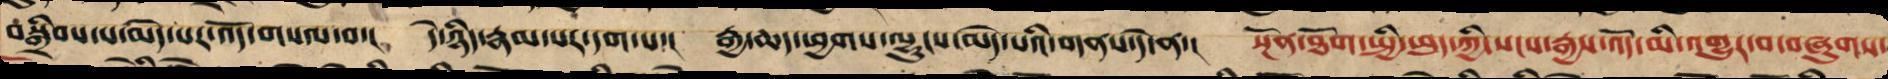བསྒྲིབས་པ་མེད་པར་འོད་གསལ་བ་། དེ་ཉིད་དུ་རྣམ་པར་དག་པ་། རྒྱ་ཆད་ཕྱགས་ལྷུངས་མེད་པའི་གནས་དེ་ན་། སྔོན་ཐོག་སྤྱི་ཕུད་ཀྱི་སངས་རྒྱས་འོད་མི་འགྱུར་བ་བཞུགས་
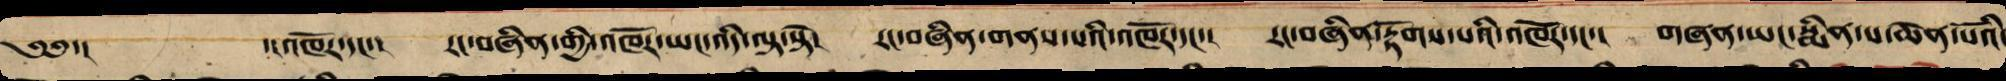༄༅་། ་།འཁོར་དང་། རང་བཞིན་གྱི་འཁོར་ཡང་འདི་ལྟ་སྟེ། རང་བཞིན་གནས་པའི་འཁོར་དང་། རང་བཞིན་རྟོགས་པའི་འཁོར་དང་། གཞན་ཡང་སྨིན་པ་ཆེན་པོའི་
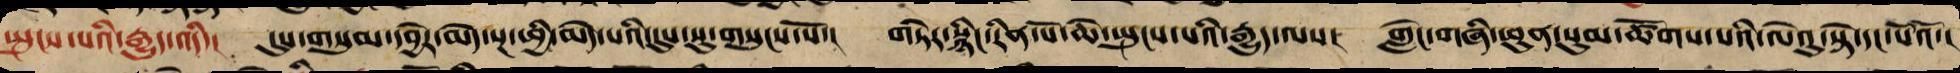སྤུངས་པའི་རྒྱུད་འདི་། དུས་གསུམ་དབྱེར་མེད་སྔ་ཕྱི་མེད་པའི་དུས་སུ་གསུངས་སོ་། གཏེར་སྙིང་རིན་པོ་ཆེ་སྤུངས་པའི་རྒྱུད་ལས། གླེང་གཞི་ཕུན་སུམ་ཚོགས་པའི་ལེའུ་སྟེ་དང་པོའོ་།།
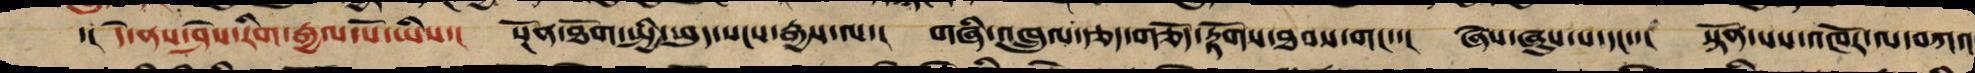་། དེ་ནས་ཤེས་རིག་རྒྱལ་པོ་ཡིས་། སྔོན་ཐོག་སྤྱི་ཕུད་སངས་རྒྱས་ལ་། གཞི་འཁྲུལ་རྩད་གཅོད་རྟོགས་ཐབས་གང་་། ཞེས་ཞུས་པ་དང་་། སྟོན་པས་འཁོར་ལ་བཀའ
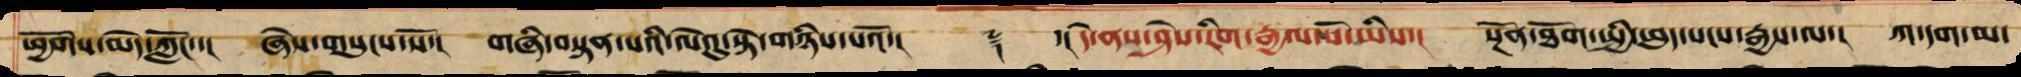ཕྱོགས་མེད་ཀློང་་། ཞེས་གསུངས་སོ་། གཞི་བསྟན་པའི་ལེའུ་སྟེ་གཉིས་པའོ་།། ༈ ་། དེ་ནས་ཤེས་རིག་རྒྱལ་པོ་ཡིས་། སྔོན་ཐོག་སྤྱི་ཕུད་སངས་རྒྱས་ལ་། ཀ་དག་མ་
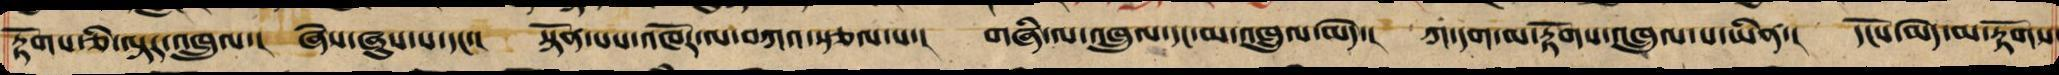རྟོགས་ཅི་ལྟར་འཁྲུལ་། ཞེས་ཞུས་པ་དང་། སྟོན་པས་འཁོར་ལ་བཀའ་སྩལ་པ་། གཞི་ལ་འཁྲུལ་དང་མ་འཁྲུལ་མེད་། ཀ་དག་མ་རྟོགས་འཁྲུལ་པ་ཡིན་། དངོས་མེད་མ་རྟོགས་
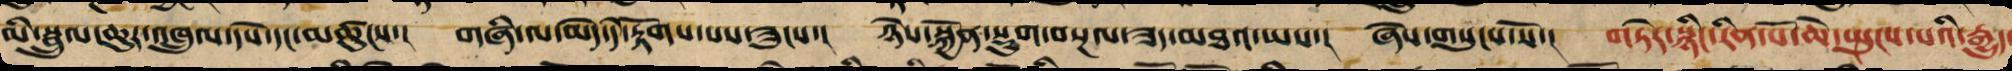མི་སྦྲུལ་ཆུར་འཁྲུལ་དཔེ་དང་མཚུངས་། གཞི་ལ་མེད་དེ་རྟོག་པས་ཟུངས་། ཉེས་སྐྱོན་སྡུག་བསྔལ་ཟད་མཐའ་ཡས་། ཞེས་གསུངས་སོ་། གཏེར་སྙིང་རིན་པོ་ཆེ་སྤུངས་པའི་རྒྱུད་
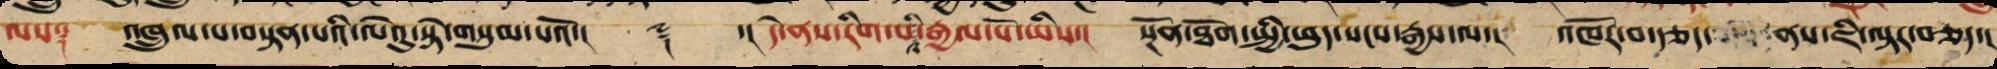ལས༑ འཁྲུལ་པ་བསྟན་པའི་ལེའུ་སྟེ་གསུམ་པའོ་།། ༈ ་། དེ་ནས་རིག་པའི་རྒྱལ་པོ་ཡིས་། སྔོན་ཐོག་སྤྱི་ཕུད་སངས་རྒྱས་ལ་། འཁོར་བ་རྩད་ ནས་ཇི་ལྟར་བཅད་།
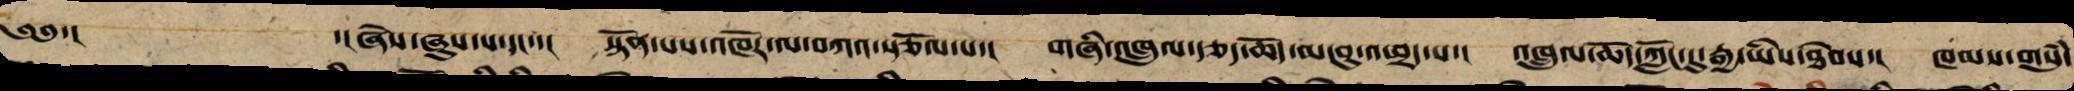༄༅་། ་།ཞེས་ཞུས་པ་དང་་། སྟོན་པས་འཁོར་ལ་བཀའ་སྩོལ་པ་། གཞི་འཁྲུལ་རྩད་ཆོད་མ་བུ་འཕྲད་པ་། འཁྲུལ་ཆོད་ཀློང་དུ་རྒྱ་ཡིས་ཐེབས་། ཁམས་གསུཾ་
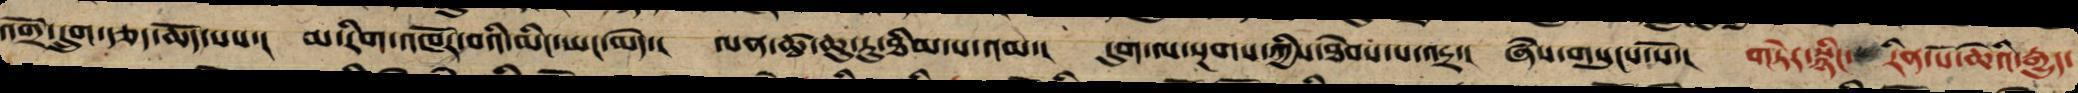འགྲོ་དྲུག་རྩད་ཆོད་པས་། མ་རིག་འཁོར་བའི་མིང་ཡང་མེད་། ལན་ཚྭ་ཆུ་རུ་ཐིམ་པའམ་། དུག་ལ་སྔགས་ཀྱིས་ཐེབས་པ་འདྲ་། ཞེས་གསུངས་སོ་། གཏེར་སྙིང་ རིན་པོ་ཆེའི་རྒྱུད་
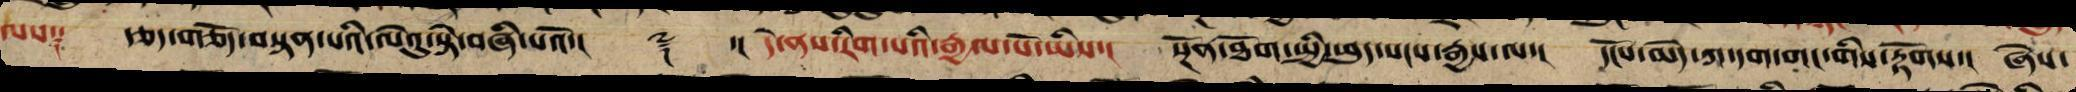ལས༑ རྩད་གཅོད་བསྟན་པའི་ལེའུ་སྟེ་བཞི་པའོ་།། ༈ ་། དེ་ནས་རིག་པའི་རྒྱལ་པོ་ཡིས་། སྔོན་ཐོག་སྤྱི་ཕུད་སངས་རྒྱས་ལ་། དངོས་མེད་ཀ་དག་གང་གིས་རྟོགས་། ཞེས་
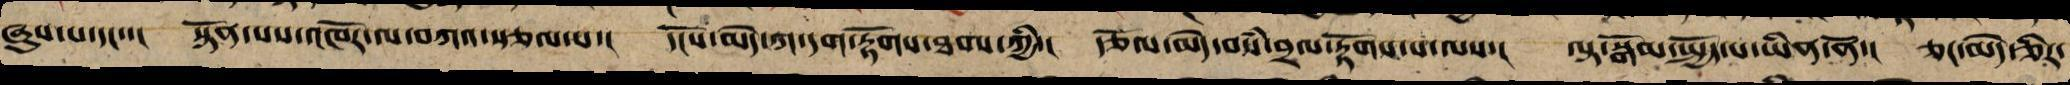ཞུས་པ་དང་་། སྟོན་པས་འཁོར་ལ་བཀའ་སྩལ་པ་། དངོས་མེད་ཀ་དག་རྟོགས་ཐབས་ཀྱི་། རྩོལ་མེད་བསཾ་བྲལ་རྟོགས་པ་ལས་། ལྟ་སྒོམ་སྤྱོད་པས་མ་ཡིན་ནོ་། ཅང་མེད་ཅིར་
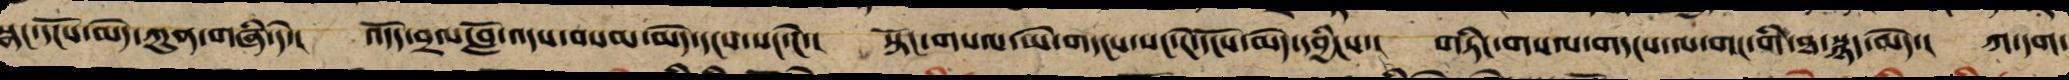སྣང་དངོས་མེད་ཀུན་གཞི་དེ་། འདོད་བྲལ་བློ་འདས་བསམ་མེད་དངས་སང་ངེ་། སྟོང་གསལ་ཡེ་གདངས་སང་ངེ་དངོས་མེད་དབྱིངས་། གཏིང་གསལ་གདངས་ལ་གང་གི་ཐ་སྙད་མེད་། ཀ་དག་
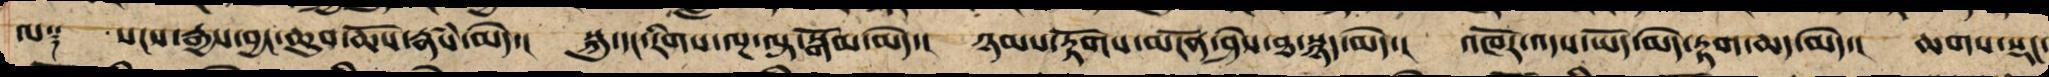ལ་།   སངས་རྒྱས་བྱང་ཆུབ་ཆོས་རྣཾས་མེད།    སྐུ་དང་རིགས་ལྔ་ལྷ་སྒོམ་མེད།   ཉམས་རྟོགས་མངོན་ཤེས་ཐ་སྙད་མེད།   འཁོར་འདས་ཡོད་མེད་རྟག་མད་མོད།   ཆགས་སྡང་་
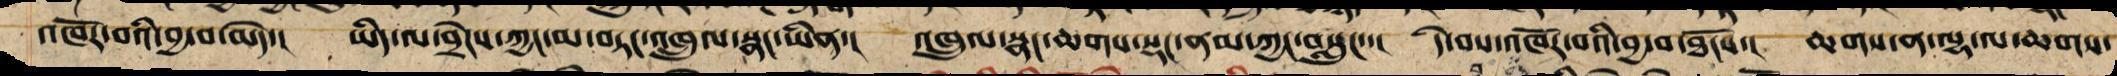འཁོར་བའི་བྱ་བ་མོད་།   ཡིད་ལ་བྲེངས་ཀྱང་མ་བརྟཌ་འཁྲུལ་སྣང་ཡིན།   འཁྲུལ་སྣང་ཆགས་སྡང་ནམ་ཀྱང་བསླུ་་།   དེ་བས་འཁོར་བའི་བྱ་བ་ཐོངས་།   ཆགས་ན་ལྷ་ལ་ཆགས་
